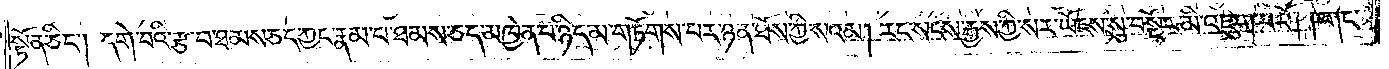སྟོན་ཅིང༌། དགེ་བའི་རྩ་བ་ཐམས་ཅད་ཀྱང་རྣམ་པ་ཐམས་ཅད་མཁྱེན་པ་ཉིད་མ་གཏོགས་པར་ཉན་ཐོས་ཀྱི་སའམ། རང་སངས་རྒྱས་ཀྱི་སར་ཡོངས་སུ་བསྔོར་མི་འཇུག་པའོ། །གང་
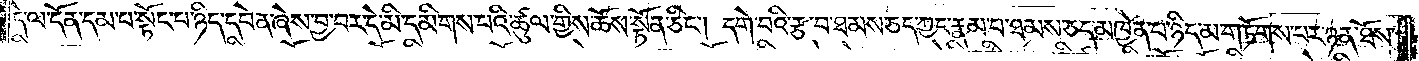དེ་ལ་དོན་དམ་པ་སྟོང་པ་ཉིད་དབེན་ཞེས་བྱ་བར་དེ་མི་དམིགས་པའི་ཚུལ་གྱིས་ཆོས་སྟོན་ཅིང༌། དགེ་བའི་རྩ་བ་ཐམས་ཅད་ཀྱང་རྣམ་པ་ཐམས་ཅད་མཁྱེན་པ་ཉིད་མ་གཏོགས་པར་ཉན་ཐོས་
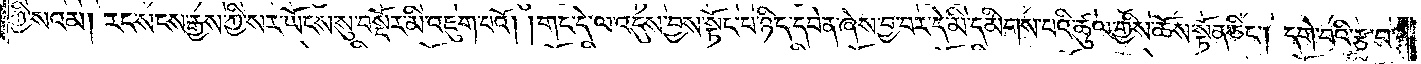ཀྱི་སའམ། རང་སངས་རྒྱས་ཀྱི་སར་ཡོངས་སུ་བསྔོར་མི་འཇུག་པའོ། །གང་དེ་ལ་འདུས་བྱས་སྟོང་པ་ཉིད་དབེན་ཞེས་བྱ་བར་དེ་མི་དམིགས་པའི་ཚུལ་གྱིས་ཆོས་སྟོན་ཅིང༌། དགེ་བའི་རྩ་བ་
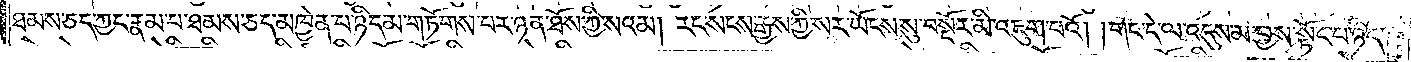ཐམས་ཅད་ཀྱང་རྣམ་པ་ཐམས་ཅད་མཁྱེན་པ་ཉིད་མ་གཏོགས་པར་ཉན་ཐོས་ཀྱི་སའམ། རང་སངས་རྒྱས་ཀྱི་སར་ཡོངས་སུ་བསྔོར་མི་འཇུག་པའོ། །གང་དེ་ལ་འདུས་མ་བྱས་སྟོང་པ་ཉིད་
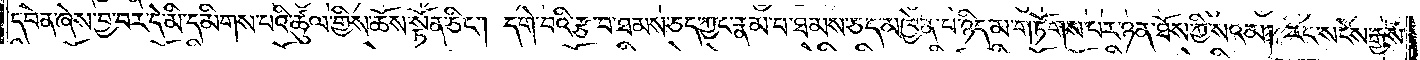དབེན་ཞེས་བྱ་བར་དེ་མི་དམིགས་པའི་ཚུལ་གྱིས་ཆོས་སྟོན་ཅིང༌། དགེ་བའི་རྩ་བ་ཐམས་ཅད་ཀྱང་རྣམ་པ་ཐམས་ཅད་མཁྱེན་པ་ཉིད་མ་གཏོགས་པར་ཉན་ཐོས་ཀྱི་སའམ། རང་སངས་རྒྱས་
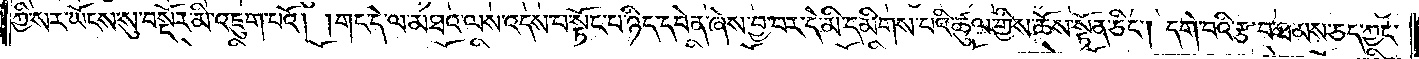ཀྱི་སར་ཡོངས་སུ་བསྔོར་མི་འཇུག་པའོ། །གང་དེ་ལ་མཐའ་ལས་འདས་པ་སྟོང་པ་ཉིད་དབེན་ཞེས་བྱ་བར་དེ་མི་དམིགས་པའི་ཚུལ་གྱིས་ཆོས་སྟོན་ཅིང༌། དགེ་བའི་རྩ་བ་ཐམས་ཅད་ཀྱང་
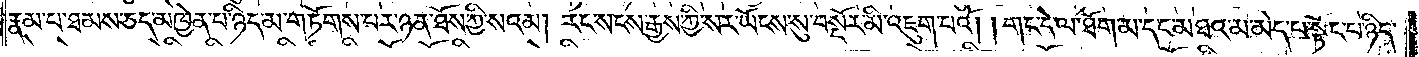རྣམ་པ་ཐམས་ཅད་མཁྱེན་པ་ཉིད་མ་གཏོགས་པར་ཉན་ཐོས་ཀྱི་སའམ། རང་སངས་རྒྱས་ཀྱི་སར་ཡོངས་སུ་བསྔོར་མི་འཇུག་པའོ། །གང་དེ་ལ་ཐོག་མ་དང་མཐའ་མ་མེད་པ་སྟོང་པ་ཉིད་
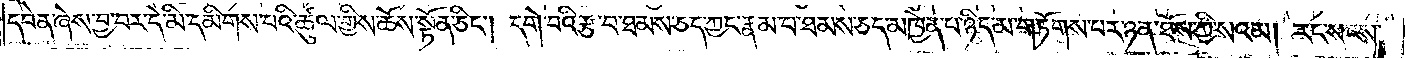དབེན་ཞེས་བྱ་བར་དེ་མི་དམིགས་པའི་ཚུལ་གྱིས་ཆོས་སྟོན་ཅིང༌། དགེ་བའི་རྩ་བ་ཐམས་ཅད་ཀྱང་རྣམ་པ་ཐམས་ཅད་མཁྱེན་པ་ཉིད་མ་གཏོགས་པར་ཉན་ཐོས་ཀྱི་སའམ། རང་སངས་
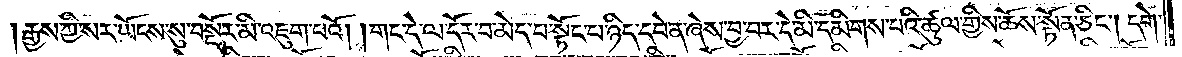རྒྱས་ཀྱི་སར་ཡོངས་སུ་བསྔོར་མི་འཇུག་པའོ། །གང་དེ་ལ་དོར་བ་མེད་པ་སྟོང་པ་ཉིད་དབེན་ཞེས་བྱ་བར་དེ་མི་དམིགས་པའི་ཚུལ་གྱིས་ཆོས་སྟོན་ཅིང༌། དགེ་
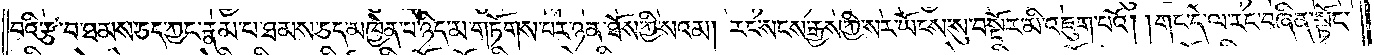བའི་རྩ་བ་ཐམས་ཅད་ཀྱང་རྣམ་པ་ཐམས་ཅད་མཁྱེན་པ་ཉིད་མ་གཏོགས་པར་ཉན་ཐོས་ཀྱི་སའམ། རང་སངས་རྒྱས་ཀྱི་སར་ཡོངས་སུ་བསྔོར་མི་འཇུག་པའོ། །གང་དེ་ལ་རང་བཞིན་སྟོང་
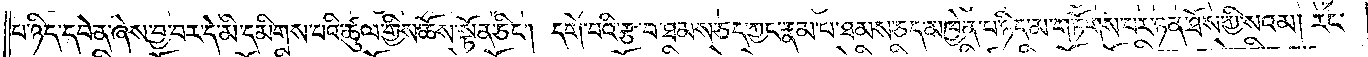པ་ཉིད་དབེན་ཞེས་བྱ་བར་དེ་མི་དམིགས་པའི་ཚུལ་གྱིས་ཆོས་སྟོན་ཅིང༌། དགེ་བའི་རྩ་བ་ཐམས་ཅད་ཀྱང་རྣམ་པ་ཐམས་ཅད་མཁྱེན་པ་ཉིད་མ་གཏོགས་པར་ཉན་ཐོས་ཀྱི་སའམ། རང་
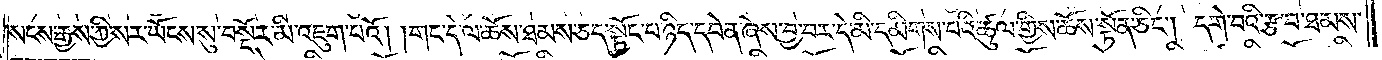སངས་རྒྱས་ཀྱི་སར་ཡོངས་སུ་བསྔོར་མི་འཇུག་པའོ། །གང་དེ་ལ་ཆོས་ཐམས་ཅད་སྟོང་པ་ཉིད་དབེན་ཞེས་བྱ་བར་དེ་མི་དམིགས་པའི་ཚུལ་གྱིས་ཆོས་སྟོན་ཅིང༌། དགེ་བའི་རྩ་བ་ཐམས་
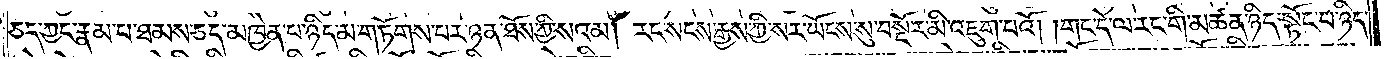ཅད་ཀྱང་རྣམ་པ་ཐམས་ཅད་མཁྱེན་པ་ཉིད་མ་གཏོགས་པར་ཉན་ཐོས་ཀྱི་སའམ། རང་སངས་རྒྱས་ཀྱི་སར་ཡོངས་སུ་བསྔོར་མི་འཇུག་པའོ། །གང་དེ་ལ་རང་གི་མཚན་ཉིད་སྟོང་པ་ཉིད་
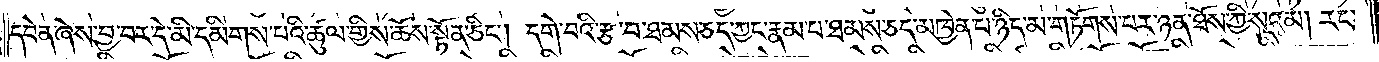དབེན་ཞེས་བྱ་བར་དེ་མི་དམིགས་པའི་ཚུལ་གྱིས་ཆོས་སྟོན་ཅིང༌། དགེ་བའི་རྩ་བ་ཐམས་ཅད་ཀྱང་རྣམ་པ་ཐམས་ཅད་མཁྱེན་པ་ཉིད་མ་གཏོགས་པར་ཉན་ཐོས་ཀྱི་སའམ། རང་
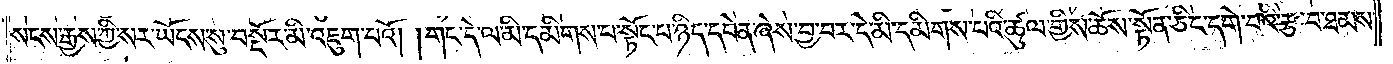སངས་རྒྱས་ཀྱི་སར་ཡོངས་སུ་བསྔོར་མི་འཇུག་པའོ། །གང་དེ་ལ་མི་དམིགས་པ་སྟོང་པ་ཉིད་དབེན་ཞེས་བྱ་བར་དེ་མི་དམིགས་པའི་ཚུལ་གྱིས་ཆོས་སྟོན་ཅིང་དགེ་བའི་རྩ་བ་ཐམས་
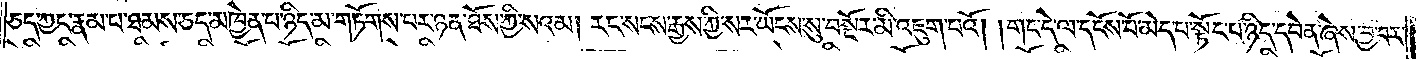ཅད་ཀྱང་རྣམ་པ་ཐམས་ཅད་མཁྱེན་པ་ཉིད་མ་གཏོགས་པར་ཉན་ཐོས་ཀྱི་སའམ། རང་སངས་རྒྱས་ཀྱི་སར་ཡོངས་སུ་བསྔོར་མི་འཇུག་པའོ། །གང་དེ་ལ་དངོས་པོ་མེད་པ་སྟོང་པ་ཉིད་དབེན་ཞེས་བྱ་བར་
